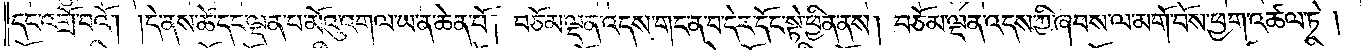དང་འགྲོ་བའོ། །དེ་ནས་ཚེ་དང་ལྡན་པ་མོའུ་འགལ་ཡ་ན་ཆེན་པོ། བཅོམ་ལྡན་འདས་གང་ན་བ་དེར་དོང་སྟེ་ཕྱིན་ནས། བཅོམ་ལྡན་འདས་ཀྱི་ཞབས་ལ་མགོ་བོས་ཕྱག་འཚལ་ཏེ།
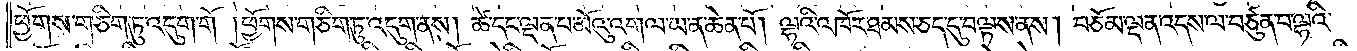ཕྱོགས་གཅིག་ཏུ་འདུག་གོ །ཕྱོགས་གཅིག་ཏུ་འདུག་ནས། ཚེ་དང་ལྡན་པ་མོའུ་འགལ་ཡ་ན་ཆེན་པོ། ལྷའི་འཁོར་ཐམས་ཅད་དུ་བལྟས་ནས། བཅོམ་ལྡན་འདས་ལ་བཙུན་པ་ལྷའི་
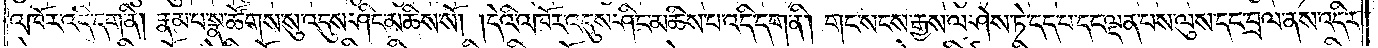འཁོར་འདི་དག་ནི། རྣམ་པ་སྣ་ཚོགས་སུ་འདུས་ཤིང་མཆིས་སོ། །དེའི་འཁོར་འདུས་ཤིང་མཆིས་པ་འདི་དག་ནི། གང་སངས་རྒྱས་ལ་ཤེས་ཏེ་དད་པ་དང་ལྡན་པས་ལུས་དང་བྲལ་ནས་འདིར་
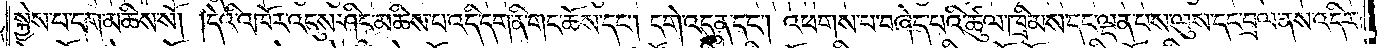སྐྱེས་པ་དག་མཆིས་སོ། །དེའི་འཁོར་འདུས་ཤིང་མཆིས་པ་འདི་དག་ནི་གང་ཆོས་དང༌། དགེ་འདུན་དང༌། འཕགས་པ་བཞེད་པའི་ཚུལ་ཁྲིམས་དང་ལྡན་པས་ལུས་དང་བྲལ་ནས་འདིར་
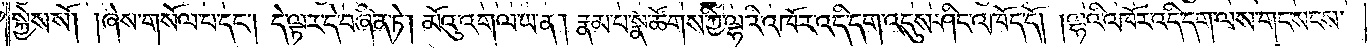སྐྱེས་སོ། །ཞེས་གསོལ་པ་དང༌། དེ་ལྟར་དེ་བཞིན་ཏེ། མོའུ་འགལ་ཡ་ན། རྣམ་པ་སྣ་ཚོགས་ཀྱི་ལྷའི་འཁོར་འདི་དག་འདུས་ཤིང་འཁོད་དོ། །ལྷའི་འཁོར་འདི་དག་ལས་གང་སངས་
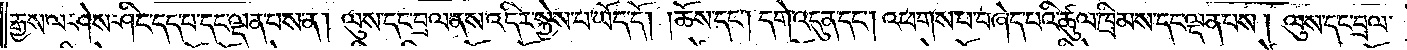རྒྱས་ལ་ཤེས་ཤིང་དད་པ་དང་ལྡན་པས་ན། ལུས་དང་བྲལ་ནས་འདིར་སྐྱེས་པ་ཡོད་དོ། །ཆོས་དང༌། དགེ་འདུན་དང༌། འཕགས་པ་བཞེད་པའི་ཚུལ་ཁྲིམས་དང་ལྡན་པས། ལུས་དང་བྲལ་
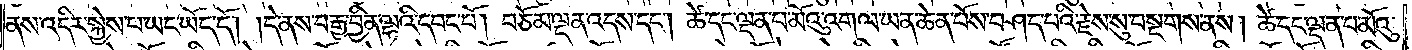ནས་འདིར་སྐྱེས་པ་ཡང་ཡོད་དོ། །དེ་ནས་བརྒྱ་བྱིན་ལྷའི་དབང་པོ། བཅོམ་ལྡན་འདས་དང༌། ཚེ་དང་ལྡན་པ་མོའུ་འགལ་ཡ་ན་ཆེན་པོས་བཤད་པའི་རྗེས་སུ་བསྔགས་ནས། ཚེ་དང་ལྡན་པ་མོའུ་
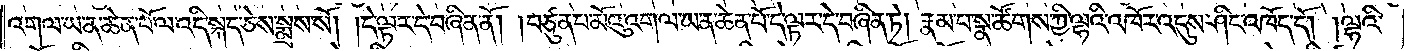འགལ་ཡ་ན་ཆེན་པོ་ལ་འདི་སྐད་ཅེས་སྨྲས་སོ། །དེ་ལྟར་དེ་བཞིན་ནོ། །བཙུན་པ་མོའུ་འགལ་ཡ་ན་ཆེན་པོ་དེ་ལྟར་དེ་བཞིན་ཏེ། རྣམ་པ་སྣ་ཚོགས་ཀྱི་ལྷའི་འཁོར་འདུས་ཤིང་འཁོད་དོ། །ལྷའི་
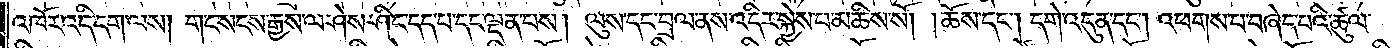འཁོར་འདི་དག་ལས། གང་སངས་རྒྱས་ལ་ཤེས་ཤིང་དད་པ་དང་ལྡན་པས། ལུས་དང་བྲལ་ནས་འདིར་སྐྱེས་པ་མཆིས་སོ། །ཆོས་དང༌། དགེ་འདུན་དང༌། འཕགས་པ་བཞེད་པའི་ཚུལ་
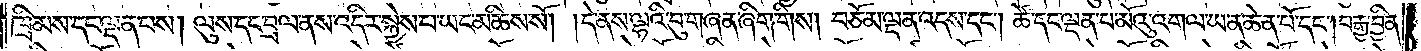ཁྲིམས་དང་ལྡན་པས། ལུས་དང་བྲལ་ནས་འདིར་སྐྱེས་པ་ཡང་མཆིས་སོ། །དེ་ནས་ལྷའི་བུ་གཞན་ཞིག་གིས། བཅོམ་ལྡན་འདས་དང༌། ཚེ་དང་ལྡན་པ་མོའུ་འགལ་ཡ་ན་ཆེན་པོ་དང༌། བརྒྱ་བྱིན་
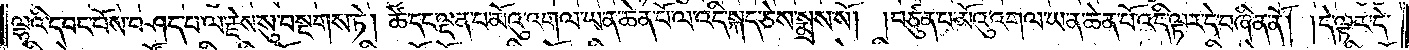ལྷའི་དབང་པོས་བཤད་པ་ལ་རྗེས་སུ་བསྔགས་ཏེ། ཚེ་དང་ལྡན་པ་མོའུ་འགལ་ཡ་ན་ཆེན་པོ་ལ་འདི་སྐད་ཅེས་སྨྲས་སོ། །བཙུན་པ་མོའུ་འགལ་ཡ་ན་ཆེན་པོ་འདི་ལྟར་དེ་བཞིན་ནོ། །དེ་ལྟར་དེ་
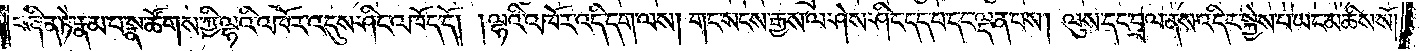བཞིན་ཏེ་རྣམ་པ་སྣ་ཚོགས་ཀྱི་ལྷའི་འཁོར་འདུས་ཤིང་འཁོད་དོ། །ལྷའི་འཁོར་འདི་དག་ལས། གང་སངས་རྒྱས་ལ་ཤེས་ཤིང་དད་པ་དང་ལྡན་པས། ལུས་དང་བྲལ་ནས་འདིར་སྐྱེས་པ་ཡང་མཆིས་སོ།
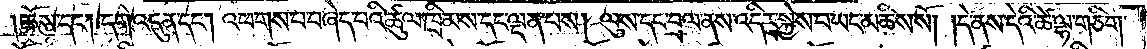ཆོས་དང༌། དགེ་འདུན་དང༌། འཕགས་པ་བཞེད་པའི་ཚུལ་ཁྲིམས་དང་ལྡན་པས། ལུས་དང་བྲལ་ནས་འདིར་སྐྱེས་པ་ཡང་མཆིས་སོ། །དེ་ནས་དེའི་ཚེ་ལྷ་གཅིག་
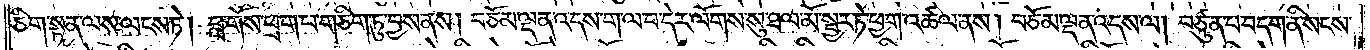ཅིག་སྟན་ལས་ལངས་ཏེ། བླ་གོས་ཕྲག་པ་གཅིག་ཏུ་བྱས་ནས། བཅོམ་ལྡན་འདས་ག་ལ་བ་དེར་ལོངས་སུ་ཐལ་མོ་སྦྱར་ཏེ་ཕྱག་འཚལ་ནས། བཅོམ་ལྡན་འདས་ལ། བཙུན་པ་བདག་ནི་སངས་
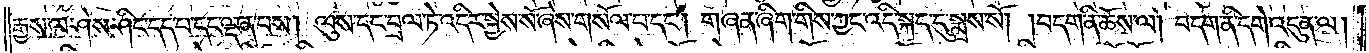རྒྱས་ལ་ཤེས་ཤིང་དད་པ་དང་ལྡན་པས། ལུས་དང་བྲལ་ཏེ་འདིར་སྐྱེས་སོ་ཞེས་གསོལ་པ་དང༌། གཞན་ཞིག་གིས་ཀྱང་འདི་སྐད་དུ་སྨྲས་སོ། །བདག་ནི་ཆོས་ལ། བདག་ནི་དགེ་འདུན་ལ།
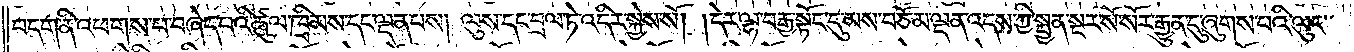བདག་ནི་འཕགས་པ་བཞེད་པའི་ཚུལ་ཁྲིམས་དང་ལྡན་པས། ལུས་དང་བྲལ་ཏེ་འདིར་སྐྱེས་སོ། །དེར་ལྷ་བརྒྱ་སྟོང་དུ་མས་བཅོམ་ལྡན་འདས་ཀྱི་སྤྱན་སྔར་སོ་སོར་རྒྱུན་དུ་ཞུགས་པའི་ལུང་
